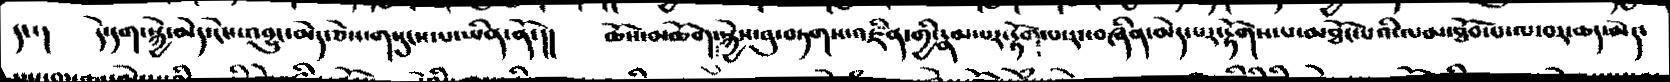དང་།    དེ་དག་སྐྱེ་མེད་ངེས་འབྱུང་མེད་ཅེས་གསུངས་པ་མེད་།།    ཆོས་མཆོག་སྐྱེས་བུ་བཏགས་འཛིན་གྱི་རྣམ་པར་རྟོག་པ་རང་བཞིན་མེད་པར་རྟོགས་པ་མཐོང་པའི་ལམ་ཐོབ་པ་ལ་བར་ཆད་མེད་
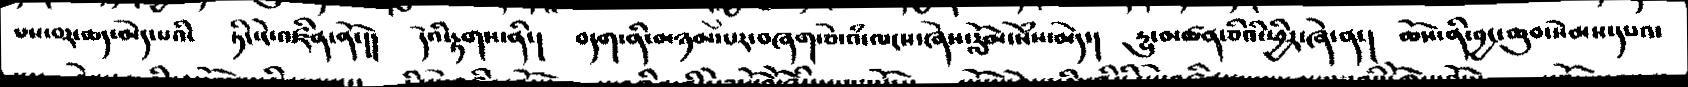པས་བར་ཆད་མེད་པའི་    ཏིང་ངེ་འཛིན་ནོ་།།   དེའི་རྟགས་ནི་།   བདག་ནི་མཉམ་པར་བཞག་ལངས་ཞེས་རློམ་སེཾས་མེད་།   རྱུ་མཚན་ཅིའི་ཕྱིར་ཞེ་ན་།  ཆོས་ནི་བྱང་ཆུབ་སེམས་དཔའ་
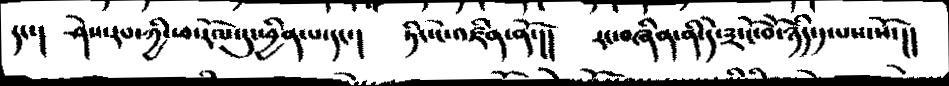དང་།    ཤེས་རབ་ཀྱི་ཕ་རོལ་དུ་ཕྱིན་པ་དང་།      ཏིང་ངེ་འཛིན་ནོ་།།   རང་བཞིན་ནི་དེ་༣་ངོ་བོ་ཉིད་༡་པས་སོ་།།
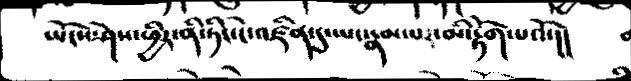ཡོངས་ཤེས་ཕྱིར་ནི་ཏིང་ངེ་འཛིན་དུ་ཡང་རྣམ་པར་མི་རྟོག་པའོ་།།
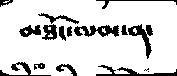མཐོང་ལམ་ན་
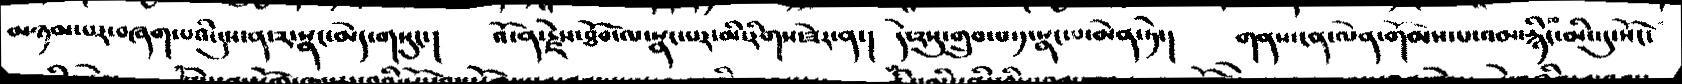མཉམ་པར་བཞག་པའི་དུས་ན་༢་སྣང་མེད་གསུང་།   འོ་ན་རྗེས་ཐོབ་ལ་སྣང་པར་མི་རིགས་ཟེར་ན་།   དེ༢སུ་གྲུབ་པ་༡་སྣང་པ་མེད་ཏེ་།   གནས་ངན་ལེན་གོམས་པ་འམ་རྙིང་མིང་དུ་སོང་
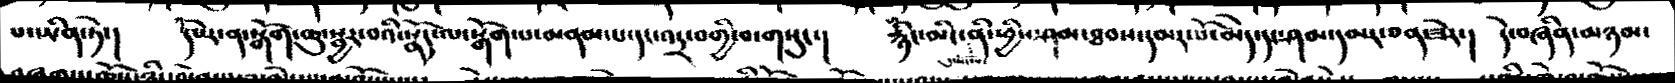པ་ཡིན་ཏེ་།   དཔེར་ན་སྒོག་ཆུ་སྦྱར་བའི་སྣོད་ལ་སྒོག་པ་མནམ་པ་དང་འདྲ་བགྱི་བ་གསུང་།  རྙིང་མང་ནི་ཕྱིས་ཤམ་ཐབས་དམར་པོ་མེད་དང་ཤམ་དམར་ཅན་ཟེར་།   དེ་བཞིན་མཉམ་
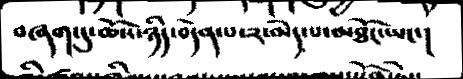བཞག་དུ་ཆོས་ཉིད་བདེན་པ་༢་མེད་པ་མཐོང་ཡང་།
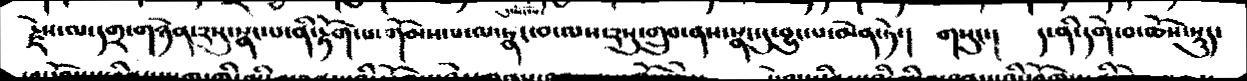རྫེས་ལ་དགྲ་གཉེན་༢སུ་སྣང་པ་ནི་རྟོག་པ་གོམས་པ་ལ་སྣང་བ་ལས་༢སུ་གྲུབ་ནས་སྣང་དུ་བྱུང་པ་མེད་ཏེ་།   གསུང་།   ད་ནི་དགེ་བ་ཆོས་སྡུད་
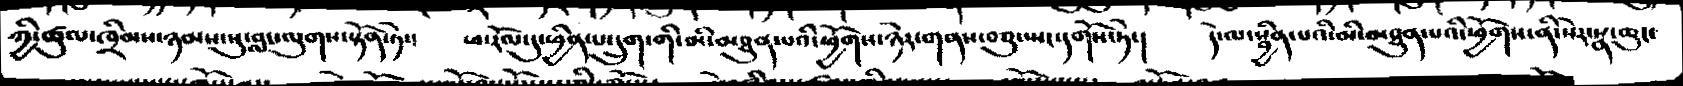ཀྱི་ཚུལ་ཁྲིམས་ཉམས་སུ་བླང་ལུགས་སྟོན་ཏེ་༴    ཕ་རོལ་དུ་ཕྱིན་པ་དྲུག་གི་མི་མཐུན་པའི་ཕྱོགས་ཉེར་གནས་བཅུ་ཡང་དགོས་ཏེ་།   དེ་ལ་སྦྱིན་པའི་མི་བཐུན་པའི་ཕྱོགས་ནི་སེར་སྣ་ཆུང་
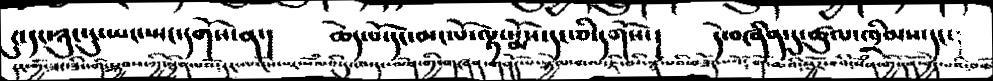ངུ་དང་ཉུང་ངུ་ཡང་ཡང་དགོས་ན་།     ཆེན་པོ་དང་མང་པོ་ལྟ་སྨོས་དང་ཅི་དགོས་།     དེ་བཞིན་དུ་ཚུལ་ཁྲིམས་དང་
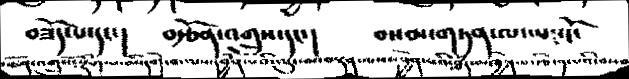བཟོད་པ་དང་།     བརྩོན་འགྲུས་དང་།     བསམ་གཏན་ལ་ཡང་ངོ་
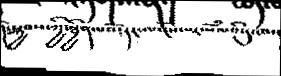དེས་སྐྱབས་ཀྱི་སྦྱིན་པའོ་རང་ལ་ངེས་པར་སཾ་པའི་དུ་མ་
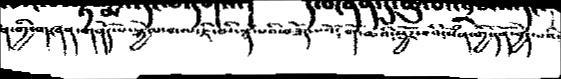ན་གྱི་གཞན་གནོད་པ་སྐྱེལ་བ་ལ་ཇི་མི་སྙཾ་པའི་བཟོད་པའོ་གོ་མའི་སྦྱོར་བའི་སེཾན་གྱི་དོན་བྱེད་པའི་
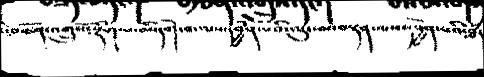་བརྩོན་འགྲུས་་སྡིག་པ་མི་དགེ་བ་ལས་དབྱིན་པའི་ལུང་མ་བསྟན་ལས་དཕྱོན་བའི་ཐཾད་
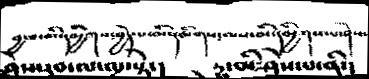བྱ་བ་མི་དམྱིགས་བྱེད་པ་མི་དམྱིགས་ལས་མི་དམྱིགས་པ་ཤེས་
